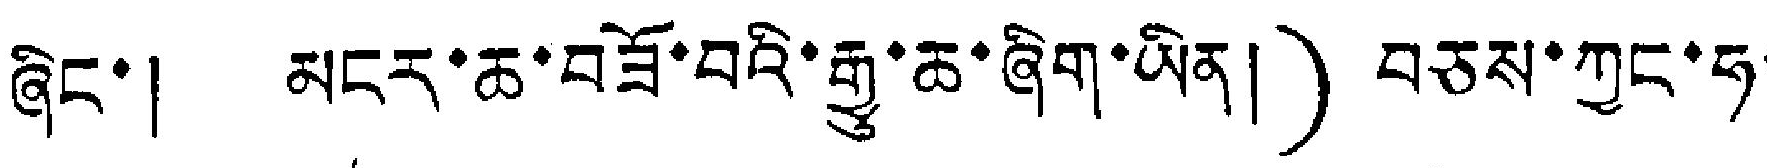ཞིང་། མངར་ཆ་བཟོ་བའི་རྒྱུ་ཆ་ཞིག་ཡིན།) བཅས་ཀྱང་ཧ་
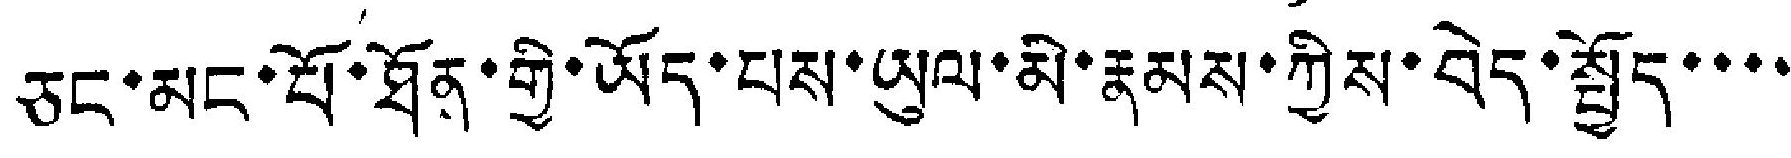ཅང་མང་པོ་ཐོན་གྱི་ཡོད་པས་ཡུལ་མི་རྣམས་ཀྱིས་བེད་སྤྱོད་་་་
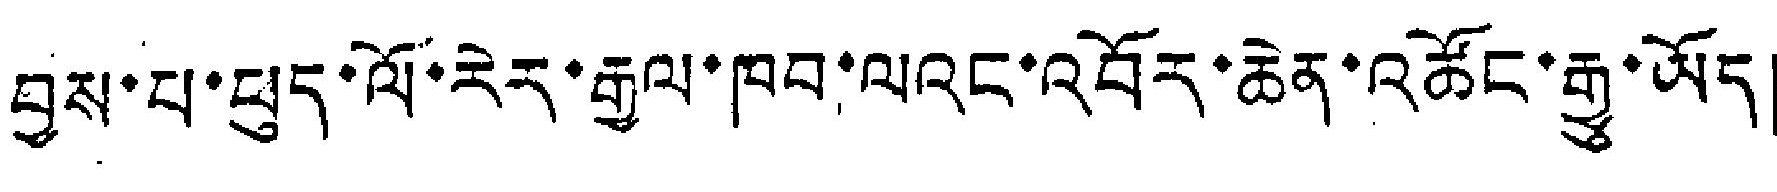བྱས་པ་ཕུད་ལོ་རེར་རྒྱལ་ཁབ་ལའང་འབོར་ཆེན་འཚོང་རྒྱུ་ཡོད།
